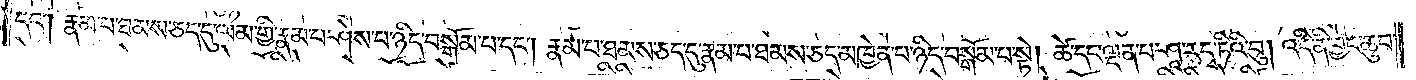དང༌། རྣམ་པ་ཐམས་ཅད་དུ་ལམ་གྱི་རྣམ་པ་ཤེས་པ་ཉིད་བསྒོམ་པ་དང༌། རྣམ་པ་ཐམས་ཅད་དུ་རྣམ་པ་ཐམས་ཅད་མཁྱེན་པ་ཉིད་བསྒོམ་པ་སྟེ། ཚེ་དང་ལྡན་པ་ཤཱ་རདྭ་ཏིའི་བུ། འདི་ནི་བྱང་ཆུབ་
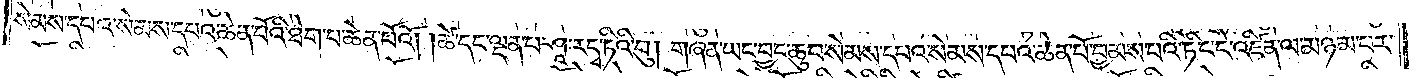སེམས་དཔའ་སེམས་དཔའ་ཆེན་པོའི་ཐེག་པ་ཆེན་པོའོ། །ཚེ་དང་ལྡན་པ་ཤཱ་རདྭ་ཏིའི་བུ། གཞན་ཡང་བྱང་ཆུབ་སེམས་དཔའ་སེམས་དཔའ་ཆེན་པོ་བྱམས་པའི་ཏིང་ངེ་འཛིན་ལ་མཉམ་པར་
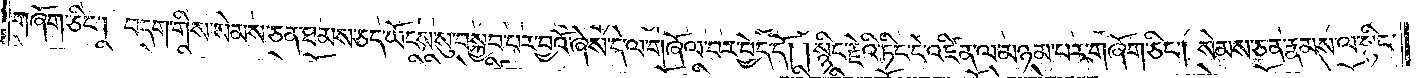གཞོག་ཅིང༌། བདག་གིས་སེམས་ཅན་ཐམས་ཅད་ཡོངས་སུ་བསྐྱབ་པར་བྱའོ་ཞེས་དེ་ལ་གཞོལ་བར་བྱེད་དོ། །སྙིང་རྗེའི་ཏིང་ངེ་འཛིན་ལ་མཉམ་པར་གཞོག་ཅིང༌། སེམས་ཅན་རྣམས་ལ་སྙིང་
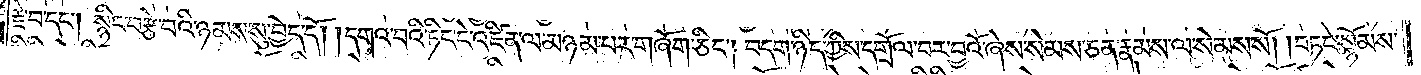རྗེ་བ་དང༌། སྙིང་བརྩེ་བའི་ཉམས་སུ་བྱེད་དོ། །དགའ་བའི་ཏིང་ངེ་འཛིན་ལ་མཉམ་པར་གཞོག་ཅིང༌། བདག་ཉིད་ཀྱིས་དགྲོལ་བར་བྱའོ་ཞེས་སེམས་ཅན་རྣམས་ལ་སེམས་སོ། །བཏང་སྙོམས་
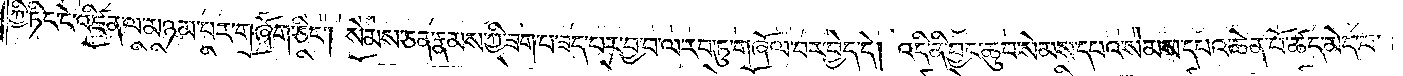ཀྱི་ཏིང་ངེ་འཛིན་ལ་མཉམ་པར་གཞོག་ཅིང༌། སེམས་ཅན་རྣམས་ཀྱི་ཟག་པ་ཟད་པར་བྱ་བ་ལ་རབ་ཏུ་གཞོལ་བར་བྱེད་དེ། འདི་ནི་བྱང་ཆུབ་སེམས་དཔའ་སེམས་དཔའ་ཆེན་པོ་ཚད་མེད་པ་
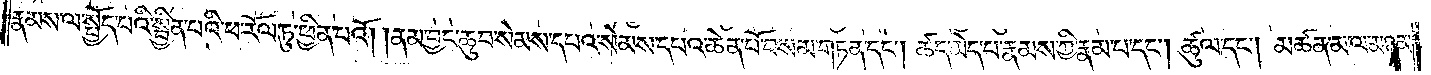རྣམས་ལ་སྤྱོད་པའི་སྦྱིན་པའི་ཕ་རོལ་ཏུ་ཕྱིན་པའོ། །ནམ་བྱང་ཆུབ་སེམས་དཔའ་སེམས་དཔའ་ཆེན་པོ་བསམ་གཏན་དང༌། ཚད་མེད་པ་རྣམས་ཀྱི་རྣམ་པ་དང༌། ཚུལ་དང༌། མཚན་མ་ལ་མཉམ་
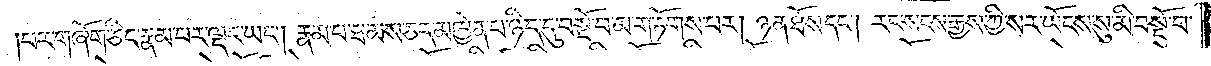པར་གཞོག་ཅིང་རྣམ་པར་ལྡང་ཡང༌། རྣམ་པ་ཐམས་ཅད་མཁྱེན་པ་ཉིད་དུ་བསྔོ་བ་མ་གཏོགས་པར། ཉན་ཐོས་དང༌། རང་སངས་རྒྱས་ཀྱི་སར་ཡོངས་སུ་མི་བསྔོ་བ་
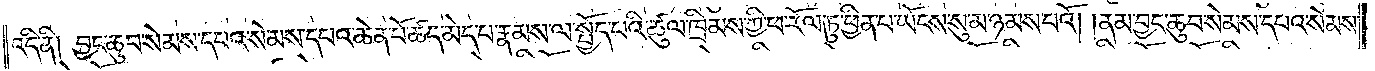འདི་ནི། བྱང་ཆུབ་སེམས་དཔའ་སེམས་དཔའ་ཆེན་པོ་ཚད་མེད་པ་རྣམས་ལ་སྤྱོད་པའི་ཚུལ་ཁྲིམས་ཀྱི་ཕ་རོལ་ཏུ་ཕྱིན་པ་ཡོངས་སུ་མ་ཉམས་པའོ། །ནམ་བྱང་ཆུབ་སེམས་དཔའ་སེམས་
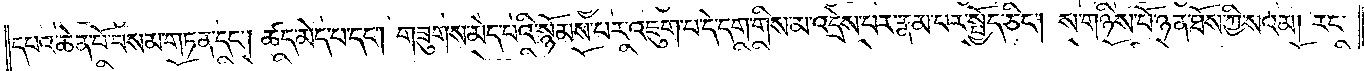དཔའ་ཆེན་པོ་བསམ་གཏན་དང༌། ཚད་མེད་པ་དང༌། གཟུགས་མེད་པའི་སྙོམས་པར་འཇུག་པ་དེ་དག་གིས་མ་འདྲེས་པར་རྣམ་པར་སྤྱོད་ཅིང༌། ས་གཉིས་པོ་ཉན་ཐོས་ཀྱི་སའམ། རང་
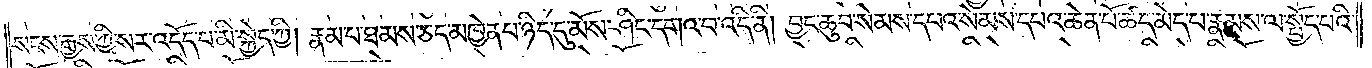སངས་རྒྱས་ཀྱི་སར་འདོད་པ་མི་སྐྱེད་ཀྱི། རྣམ་པ་ཐམས་ཅད་མཁྱེན་པ་ཉིད་དུ་མོས་ཤིང་དགའ་བ་འདི་ནི། བྱང་ཆུབ་སེམས་དཔའ་སེམས་དཔའ་ཆེན་པོ་ཚད་མེད་པ་རྣམས་ལ་སྤྱོད་པའི་
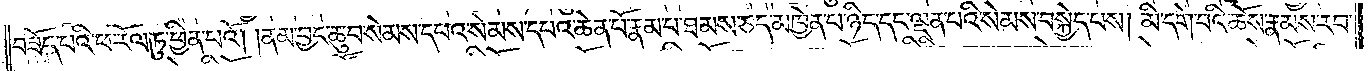བཟོད་པའི་ཕ་རོལ་ཏུ་ཕྱིན་པའོ། །ནམ་བྱང་ཆུབ་སེམས་དཔའ་སེམས་དཔའ་ཆེན་པོ་རྣམ་པ་ཐམས་ཅད་མཁྱེན་པ་ཉིད་དང་ལྡན་པའི་སེམས་བསྐྱེད་པས། མི་དགེ་བའི་ཆོས་རྣམས་རབ་
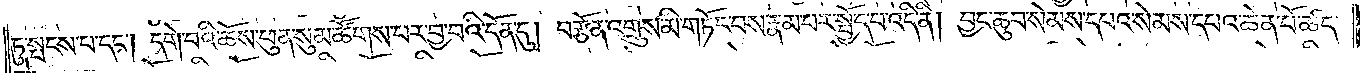ཏུ་སྤངས་པ་དང༌། དགེ་བའི་ཆོས་ཕུན་སུམ་ཚོགས་པར་བྱ་བའི་དོན་དུ། བརྩོན་འགྲུས་མི་གཏོང་བས་རྣམ་པར་སྤྱོད་པ་འདི་ནི། བྱང་ཆུབ་སེམས་དཔའ་སེམས་དཔའ་ཆེན་པོ་ཚད་
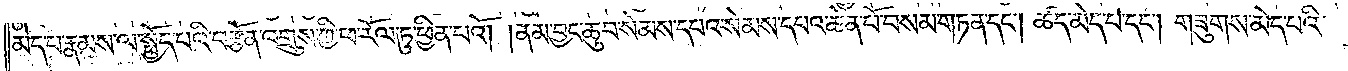མེད་པ་རྣམས་ལ་སྤྱོད་པའི་བརྩོན་འགྲུས་ཀྱི་ཕ་རོལ་ཏུ་ཕྱིན་པའོ། །ནམ་བྱང་ཆུབ་སེམས་དཔའ་སེམས་དཔའ་ཆེན་པོ་བསམ་གཏན་དང༌། ཚད་མེད་པ་དང༌། གཟུགས་མེད་པའི་
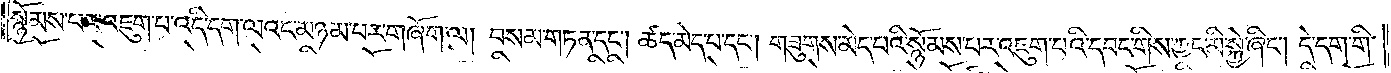སྙོམས་པར་འཇུག་པ་འདི་དག་ལའང་མཉམ་པར་གཞོག་ལ། བསམ་གཏན་དང༌། ཚད་མེད་པ་དང༌། གཟུགས་མེད་པའི་སྙོམས་པར་འཇུག་པའི་དབང་གིས་ཀྱང་མི་སྐྱེ་ཞིང༌། དེ་དག་གི་
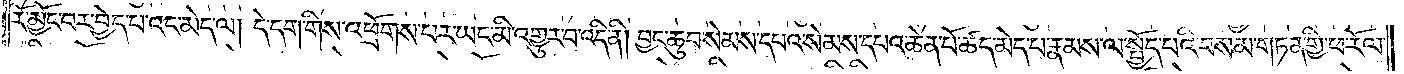རོ་མྱོང་བར་བྱེད་པའང་མེད་ལ། དེ་དག་གིས་འཕྲོགས་པར་ཡང་མི་འགྱུར་བ་འདི་ནི། བྱང་ཆུབ་སེམས་དཔའ་སེམས་དཔའ་ཆེན་པོ་ཚད་མེད་པ་རྣམས་ལ་སྤྱོད་པའི་བསམ་གཏན་གྱི་ཕ་རོལ་
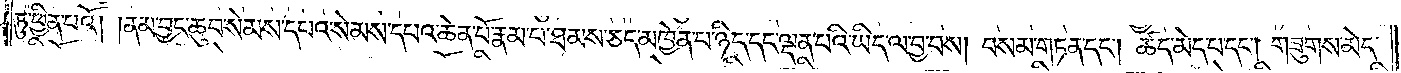ཏུ་ཕྱིན་པའོ། །ནམ་བྱང་ཆུབ་སེམས་དཔའ་སེམས་དཔའ་ཆེན་པོ་རྣམ་པ་ཐམས་ཅད་མཁྱེན་པ་ཉིད་དང་ལྡན་པའི་ཡིད་ལ་བྱ་བས། བསམ་གཏན་དང༌། ཚད་མེད་པ་དང༌། གཟུགས་མེད་
